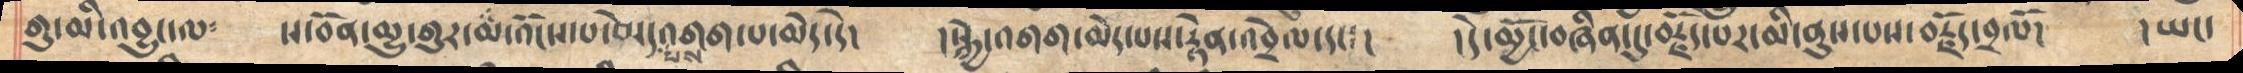གུ་མི་འབྱུང་ལ༴   ས་བོན་མྱུ་གྱུར་མ་འོངས་པ་མེད་པས་འགག་པ་མེད་དེ།  །སྐྱེ་འགག་མེད་པས་རྟེན་འབྲེལ་དང་།  །དེ་མྱོང་བཞིན་དུ་བརྗོད་པར་མི་ནུས་པས་བརྗོད་བྲལོ།  །ཡང་
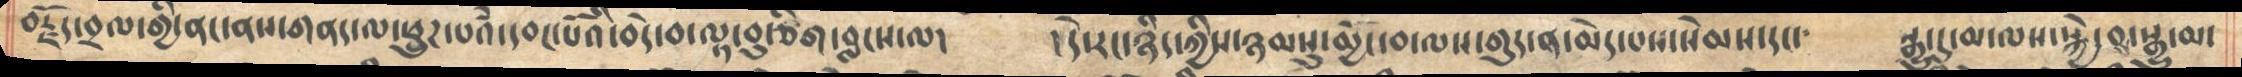བརྗོད་བྲལ་གྱི་ནང་ནས་གནད་ལ་ཕྲུཌ་པའི་དབང་པོའི་བདེ་བ་ལྟ་བུ་ཅིག་བླངས་ལ།   །དེ་རང་ཉིད་ཀྱིས་ཉམསུ་མྱོང་བ་ལས་གུད་ན་མེད་པས་སེམས་དང་༴   རྒྱུ་དུ་མ་ལས་སྐྱེ་བས་སྒྱུ་མ་
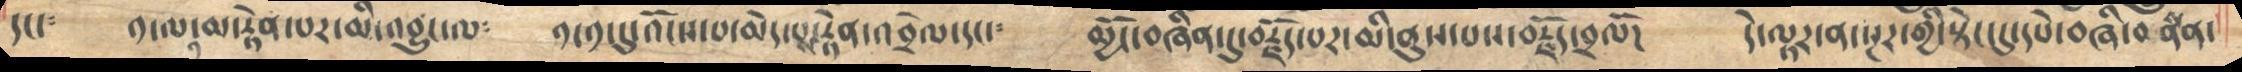དང་༴   ༡་ལ་༡་མ་རྟེན་པར་མི་འབྱུང་ལ༴   ༡་༡་དུ་འོངས་པ་མེད་པས་རྟེན་འབྲེལ་དང་༴  མྱོང་བཞིན་དུ་བརྗོད་པར་མི་ནུས་པས་བརྗོད་བྲལོ།   དེ་ལྟར་སྔར་གྱི་སྟེང་དུ་དཔེ་བཞི་བསྣན་
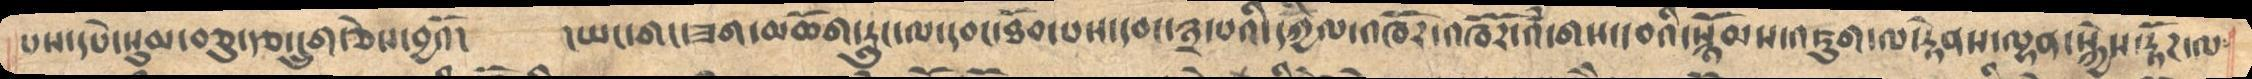པས་དཔེ་སུམ་བཅུ་རྩ་དྲུག་ཅེས་བྱའོ།   །ཡང་གང་ཟག་མཆོག་རླུང་ལ་དབང་ཐོབ་པས་དབང་༣་པའི་དཀྱིལ་འཁོར་འཁོོར་འཾ་གསང་བའི་སྙོམས་འཇུག་ལ་རྟེནས་ལྷན་སྐྱེས་རྟོཌ་ལ༴
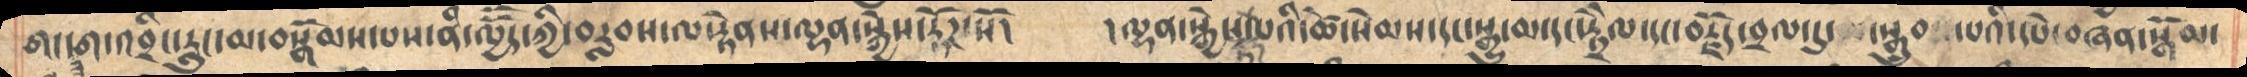གང་ཟག་འབྲིང་རླུང་མ་བསྒོམས་པས་ནི་ལྱཽད་ཀྱི་བརླབས་ལ་རྟེནས་ལྷན་སྐྱེས་རྟོཌ་སོ།  །ལྷན་སྐྱེས་པའི་ཚེ་སེམས་དང་སྒྱུ་མ་དང་རྟྲཻལ་དང་བརྗོད་བྲལ་དུ་སྒྲུབ་པའི་དཔེ་བཞིན་སྒོམ་
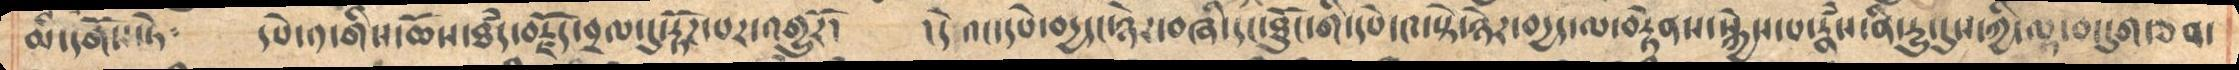མི་དགོས་ཏེ༴    དཔེ་༡་གིས་ཆོས་ཐམད་བརྗོད་བྲལ་དུ་རྟོཌ་པར་འགྱུརོ།    །དེ འང་དཔེ་བདྱད་དང་ཉེར་བཞི་དང་ཐོུང་གི་དཔེ་༤་སྟེ་ཉེར་བདྱད་ལ་བརྟེནས་སྐྱེས་པ་རྣཾས་ནི་དྱུ་དུས་ཀྱི་ལྟ་བ་དུག་ཅན་
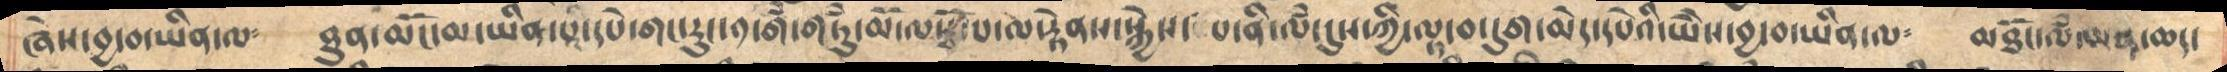ཞེས་བྱ་བ་ཡིན་ལ་    ཐུན་མོང་མ་ཡིན་པའི་དཔེ་གང་རུང་༡་གི་གཏུཾ་མོ་ལསྭོ་པ་ལ་རྟེནས་སྐྱེས་ པ་ནི་ལཾ་དུས་ཀྱི་ལྟ་བ་དུག་མེད་དཔེའི་ཡཻས་བྱ་བ་ཡིན་ལ༴  མཐོང་ལཾ་མན་ཆད་
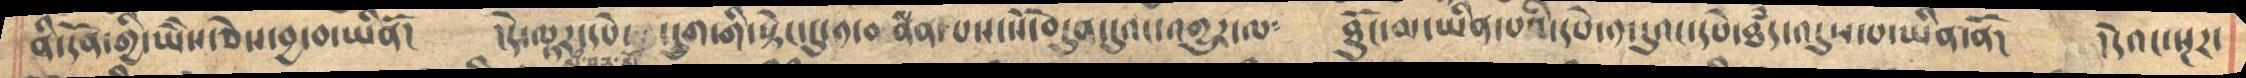ནི་དོན་གྱི་ཡཻས་ཅེས་བྱ་བ་ཡིནོ།  །དེ་ལྟར་དཔེ་དྲུག་གི་སྟེང་དུ་༡་བསྣན་པས་སོ་བདུན་དུའང་འགྱུར་ལ༴ ཐོུང་མ་ཡིན་པའི་དཔེ་༡་དུའང་དཔེ་ཐཾད་འདུས་པ་ཡིན་ནོ།  །དེའང་སྔཌ་
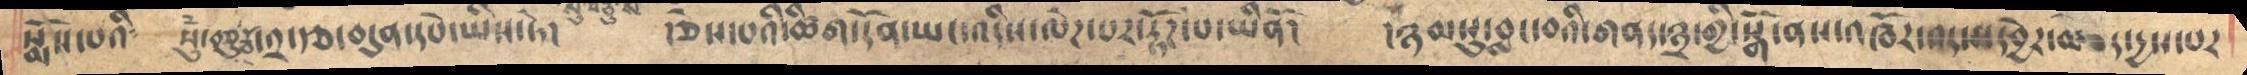སྨོས་པའི༴   སུཾ་བཅུ་རྩ་༢་རྩ་བདུན་དཔེ་ཡིས་ཏེ།     །ཅེས་པའི་ཚིག་དོན་ཡང་འདིས་ལེཌ་པར་རྟོཌ་པ་ཡིནོ།  །ཉམསུ་བླང་བའི་གནད་༣་གྱི་སྒོ་ནས་འཁོར་འདས་དབྱེར་མེད་དྱས་པར
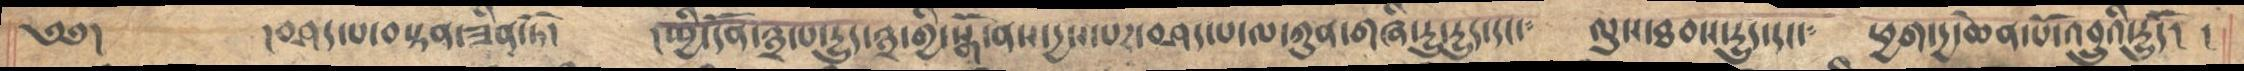༄༅།     །བཤད་པ་བསྟན་ཟིན་ཏོ།   །ཕྱི་དོན་༣་པ་དྱུད་༣་གྱི་སྒོ་ནས་དྱས་པར་བཤད་པ་ལ་ཀུན་གཞི་དྱུ་དྱུད་དང་༴    ལུས་ཐབས་དྱུད་དང་༴   ཕྱག་དྱ་ཆེན་པོ་འབྲུའི་དྱུདོ།  །
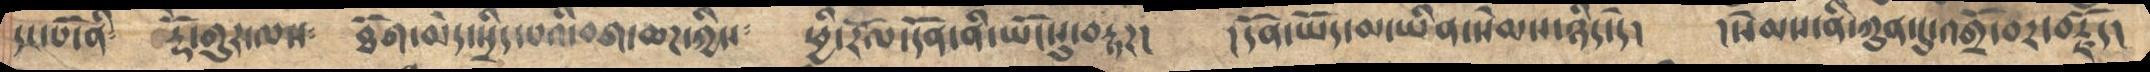དང་པོ་ནི༴    རྡོེ་གུར་ལས༴    ཐོག་མེད་སྲིད་པའི་བག་ཆཌ་ཀྱིས༴   ཕྱི་རོལ་དོན་ནི་ཡོངསུ་བརྟཌ།   །དོན་ཡོད་མ་ཡིན་སེམས་ཉིད་དེ།   །སེམས་ནི་ཀུན་དུ་འགྲོ་བར་བརྗོད།
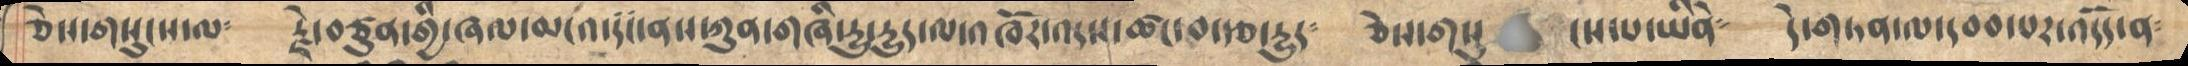ཅེས་གསུངས་ལ༴   རྗེ་བཙུན་གྱི་ཞལ་མངའ་དང་ནས་ཀུན་གཞི་དྱུ་དྱུད་ལ་འཁོར་འདས་ཚང་བ་རྩ་དྱུད༴   ཅེས་གསུ   ངས་པ་ཡིནེ༴    དེ་གཏན་ལ་དབབ་པར་འདོད་ན༴
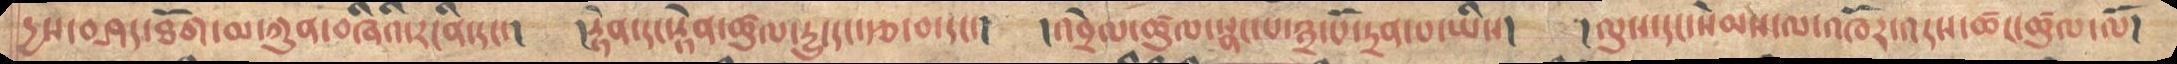དྱས་བཤད་ཐོག་མ་ཀུན་བཞིའི་རངིན་དང་།   །རྟེན་དང་རྟེན་ཚུལ་དྱུ་དང་རྩ་བ་དང་།   །འབྲེལ་ཚུལ་སྣང་པ་༣་པོ་དྲན་པ་ཡིས།  །ལུས་དང་སེམས་ལ་འཁོར་འདས་ཚང་ཚུལ་ལོ།
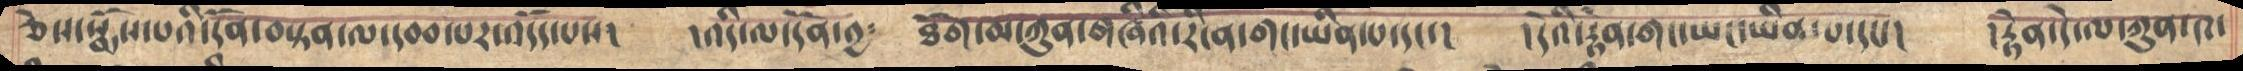ཅེས་སྨོས་པའི་དོན་བསྟན་ལ་དབབ་པར་འདོད་པས།   །འདི་ལ་དོན་༢༴   ཐོག་མ་ཀུན་གཞིའི་རངིན་གང་ཡིན་པ་དང་།    །དེའི་རྟེན་གང་ཡང་ཡིན་པ་དང་།   །རྟེན་དེ་ལ་ཀུན་༤་
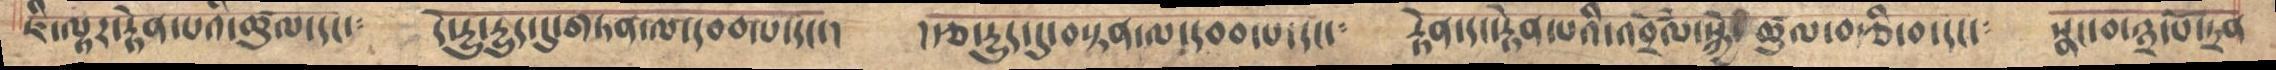ཇི་ལྟར་རྟེན་པའི་ཚུལ་དང་༴   དེ་དྱུ་དྱུད་དུ་གཏན་ལ་དབབ་པ་དང་།   །རྩ་དྱུད་དུ་བསྟན་ལ་དབབ་པ་དང་༴    རྟེན་དང་རྟེན་པའི་འབྲེལཾ་སྐྱེ་ཚུལ་བརྩི་བ་དང་༴  སྣང་བ་༣་པོ་དྲན
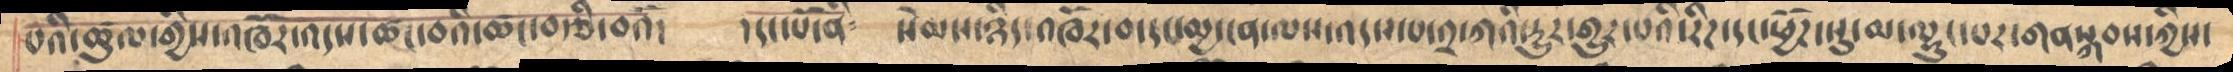པའི་ཚུལ་གྱིས་འཁོར་འདས་ཚང་བའི་ཚང་བརྩི་བའོ།    །དང་པོ་ནི༴    སེམས་ཉིད་འཁོར་བ་དང་མྱ་ངན་ལས་འདས་པ་༢་ཀའི་དྱུར་གྱུར་པའི་རིཌ་དང་ཕྱོཌ་སུ་མ་ལྷུང་པར་གནསྐབས་ཀྱིས་
